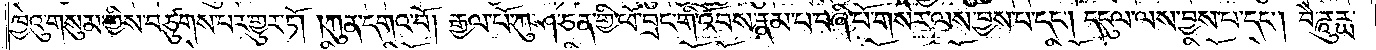ཁྱེའུ་གསུམ་གྱིས་བཙུགས་པར་གྱུར་ཏོ། །ཀུན་དགའ་བོ། རྒྱལ་པོ་ཀུན་ཤ་ཅན་གྱི་ཕོ་བྲང་གི་འོབས་རྣམ་པ་བཞི་པོ་གསེར་ལས་བྱས་པ་དང༌། དངུལ་ལས་བྱས་པ་དང༌། བཻ་ཌཱུརྻ་
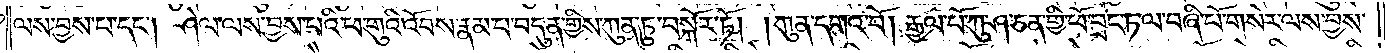ལས་བྱས་པ་དང༌། ཤེལ་ལས་བྱས་པའི་ཕ་གུའི་འོབས་རྣམ་པ་བདུན་གྱིས་ཀུན་ཏུ་བསྐོར་ཏོ། །ཀུན་དགའ་བོ། རྒྱལ་པོ་ཀུ་ཤ་ཅན་གྱི་ཕོ་བྲང་ཏ་ལ་བཞི་པོ་གསེར་ལས་བྱས་
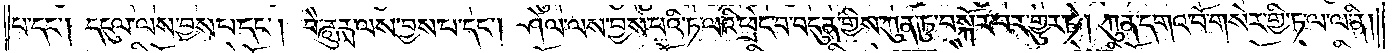པ་དང༌། དངུལ་ལས་བྱས་པ་དང༌། བཻ་ཌཱུརྻ་ལས་བྱས་པ་དང༌། ཤེལ་ལས་བྱས་པའི་ཏ་ལའི་ཕྲེང་བ་བདུན་གྱིས་ཀུན་ཏུ་བསྐོར་བར་གྱུར་ཏེ། ཀུན་དགའ་བོ་གསེར་གྱི་ཏ་ལ་ལ་ནི།
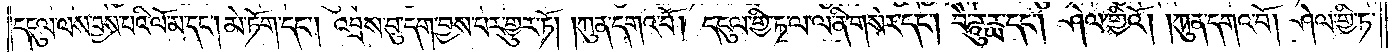དངུལ་ལས་བྱས་པའི་ལོ་མ་དང༌། མེ་ཏོག་དང༌། འབྲས་བུ་དག་བྱས་པར་གྱུར་ཏོ། །ཀུན་དགའ་བོ། དངུལ་གྱི་ཏ་ལ་ལ་ནི་གསེར་དང༌། བཻ་དང༌། ཤེལ་གྱིའོ། །ཀུན་དགའ་བོ། ཤེལ་གྱི་ཏ་
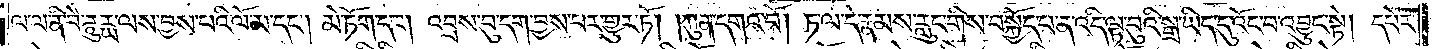ལ་ལ་ནི་བཻ་ཌཱུཪྻ་ལས་བྱས་པའི་ལོ་མ་དང༌། མེ་ཏོག་དང༌། འབྲས་བུ་དག་བྱས་པར་གྱུར་ཏོ། །ཀུན་དགའ་བོ། ཏ་ལ་དེ་རྣམས་རླུང་གིས་བསྐྱོད་པ་ན་འདི་ལྟ་བུའི་སྒྲ་ཡིད་དུ་འོང་བ་འབྱུང་སྟེ། དཔེར་
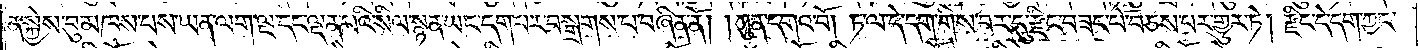ན་སྐྱེས་བུ་མཁས་པས་ཡན་ལག་ལྔ་དང་ལྡན་པའི་སིལ་སྙན་ཡང་དག་པར་བསྒྲགས་པ་བཞིན་ནོ། །ཀུན་དགའ་བོ། ཏ་ལ་དེ་དག་གིས་བར་དུ་རྫིང་བཟང་པོ་བཅས་པར་གྱུར་ཏེ། རྫིང་དེ་དག་ཀྱང་
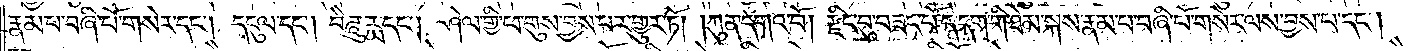རྣམ་པ་བཞི་པོ་གསེར་དང༌། དངུལ་དང༌། བཻ་དང༌། ཤེལ་གྱི་ཕ་གུས་བྱས་པར་གྱུར་ཏོ། །ཀུན་དགའ་བོ། རྫིང་བུ་བཟང་པོ་དེ་དག་གི་ཐེམ་སྐས་རྣམ་པ་བཞི་པོ་གསེར་ལས་བྱས་པ་དང༌།
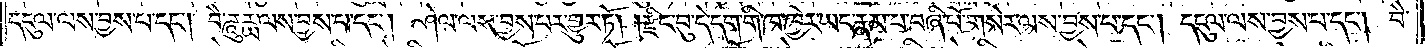དངུལ་ལས་བྱས་པ་དང༌། བཻ་ཌཱུཪྻ་ལས་བྱས་པ་དང༌། ཤེལ་ལས་བྱས་པར་གྱུར་ཏོ། །རྫིང་བུ་དེ་དག་གི་ཁ་ཁྱེར་ཡང་རྣམ་པ་བཞི་པོ་གསེར་ལས་བྱས་པ་དང༌། དངུལ་ལས་བྱས་པ་དང༌། བཻ
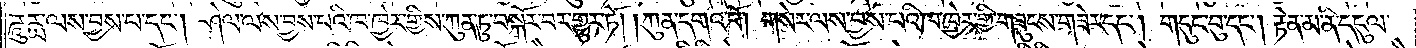ཌཱུརྻ་ལས་བྱས་པ་དང༌། ཤེལ་ལས་བྱས་པའི་ཁ་ཁྱེར་གྱིས་ཀུན་ཏུ་བསྐོར་བར་གྱུར་ཏོ། །ཀུན་དགའ་བོ། གསེར་ལས་བྱས་པའི་ཁ་ཁྱེར་གྱི་གཟུངས་གཟེར་དང༌། གདུང་བུ་དང༌། རྟེན་མ་ནི་དངུལ་
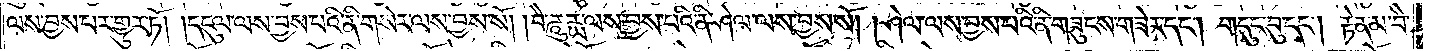ལས་བྱས་པར་གྱུར་ཏོ། །དངུལ་ལས་བྱས་པའི་ནི་གསེར་ལས་བྱས་སོ། །བཻ་ཌཱུཪྻ་ལས་བྱས་པའི་ནི་ཤེལ་ལས་བྱས་སོ། །ཤེལ་ལས་བྱས་པའི་ནི་གཟུངས་གཟེར་དང༌། གདུང་བུ་དང༌། རྟེན་མ་བཻ་
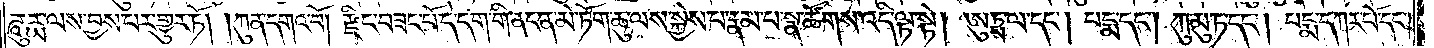ལས་བྱས་པར་གྱུར་ཏོ། །ཀུན་དགའ་བོ། རྫིང་བཟང་པོ་དེ་དག་གི་ནང་ན་མེ་ཏོག་ཆུ་ལས་སྐྱེས་པ་རྣམ་པ་སྣ་ཚོགས་འདི་ལྟ་སྟེ། ཨུཏྤ་ལ་དང༌། པདྨ་དང༌། ཀུ་མུ་ཏ་དང༌། པདྨ་དཀར་པོ་དང༌།
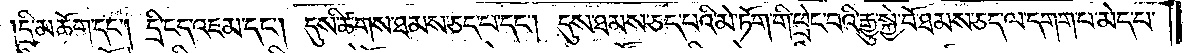དྲི་མཆོག་དང༌། དྲི་ངད་འཇམ་དང༌། དུས་ཚིགས་ཐམས་ཅད་པ་དང༌། དུས་ཐམས་ཅད་པའི་མེ་ཏོག་གི་ཕྲེང་བའི་རྒྱུ་སྐྱེ་བོ་ཐམས་ཅད་ལ་དགག་པ་མེད་པ་
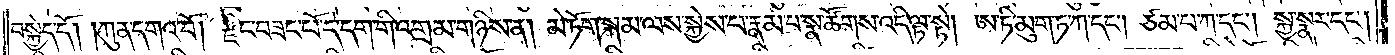བསྐྱེད་དོ། །ཀུན་དགའ་བོ། རྫིང་བཟང་པོ་དེ་དག་གི་འགྲམ་གཉིས་ན། མེ་ཏོག་སྐམ་ལས་སྐྱེས་པ་རྣམ་པ་སྣ་ཚོགས་འདི་ལྟ་སྟེ། ཨ་ཏི་མུག་ཏ་ཀ་དང༌། ཙམ་པ་ཀ་དང༌། སྐྱ་སྣར་དང༌།
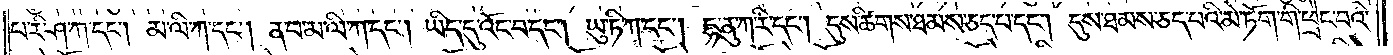པ་རི་ཤ་ཀ་དང༌། མ་ལི་ཀ་དང༌། ན་བ་མ་ལི་ཀ་དང༌། ཡིད་དུ་འོང་བ་དང༌། ཡུ་ཏི་ཀ་དང༌། དྷ་ནུ་ཀ་རི་དང༌། དུས་ཚིགས་ཐམས་ཅད་པ་དང༌། དུས་ཐམས་ཅད་པའི་མེ་ཏོག་གི་ཕྲེང་བའི་
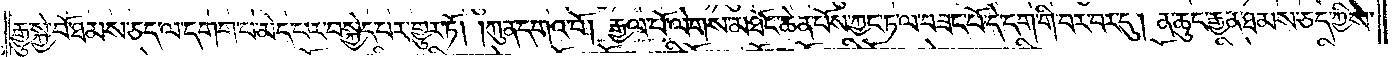རྒྱུ་སྐྱེ་བོ་ཐམས་ཅད་ལ་དགག་པ་མེད་པར་བསྐྱེད་པར་གྱུར་ཏོ། །ཀུན་དགའ་བོ། རྒྱལ་པོ་ལེགས་མཐོང་ཆེན་པོས་ཀྱང་ཏ་ལ་བཟང་པོ་དེ་དག་གི་བར་བར་དུ། ན་ཆུང་རྒྱན་ཐམས་ཅད་ཀྱིས་
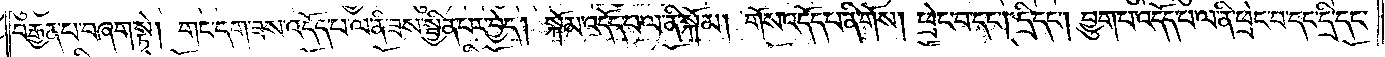བརྒྱན་པ་བཞག་སྟེ། གང་དག་ཟས་འདོད་པ་ལ་ནི་ཟས་སྦྱིན་པར་བྱེད། སྐོམ་འདོད་པ་ལ་ནི་སྐོམ། གོས་འདོད་པ་ནི་གོས། ཕྲེང་བ་དང༌། དྲི་དང༌། བྱུག་པ་འདོད་པ་ལ་ནི་ཕྲེང་བ་དང་དྲི་དང་
